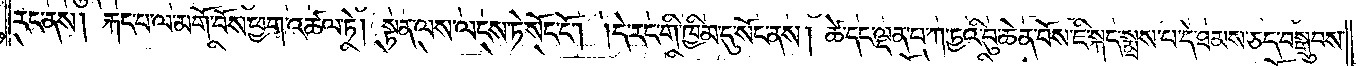རང་ནས། རྐང་པ་ལ་མགོ་བོས་ཕྱག་འཚལ་ཏེ། སྟན་ལས་ལངས་ཏེ་སོང་ངོ༌། །དེ་རང་གི་ཁྱིམ་དུ་སོང་ནས། ཚེ་དང་ལྡན་པ་ཀ་ཏྱའི་བུ་ཆེན་པོས་ཇི་སྐད་སྨྲས་པ་དེ་ཐམས་ཅད་བསྒྲུབས་
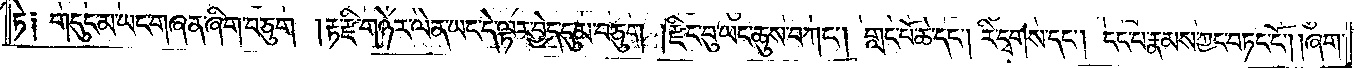ཏེ༑ གདུང་མ་ཡང་གཞན་ཞིག་བཅུག །རྟ་རྫི་གཉེར་ལེན་ཡང་དེ་ལྟར་བྱེད་དུ་མ་བཅུག །རྫིང་བུ་ཡང་ཆུས་བཀང༌། གླང་པོ་ཆེ་དང༌། རི་དྭགས་དང༌། ངང་པ་རྣམས་ཀྱང་བཏང་ངོ༌། །ཞག་
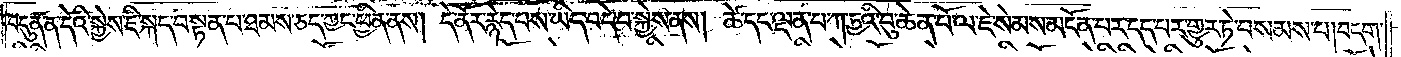བདུན་ན་དེའི་སྐྱེས་ཇི་སྐད་བསྟན་པ་ཐམས་ཅད་ཀྱང་ཕྱིན་ནས། དེ་ནོར་རྙེད་པས་ཡིད་བདེ་བ་སྐྱེས་ནས། ཚེ་དང་ལྡན་པ་ཀ་ཏྱའི་བུ་ཆེན་པོ་ལ་ཇེ་སེམས་མངོན་པར་དད་པར་གྱུར་ཏེ་བསམས་པ། བདག་
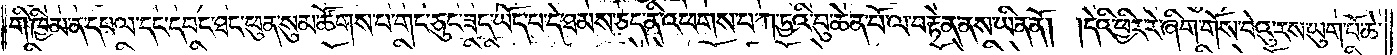གི་ཁྱིམ་ན་དཔལ་དང་དབང་ཐང་ཕུན་སུམ་ཚོགས་པ་གང་ཅུང་ཟད་ཡོད་པ་དེ་ཐམས་ཅད་ནི་འཕགས་པ་ཀ་ཏྱའི་བུ་ཆེན་པོ་ལ་བརྟེན་ནས་ཡིན་ནོ། །དེའི་ཕྱིར་རེ་ཞིག་གོས་བེའུ་རས་ཡུག་པོ་ཆེ་
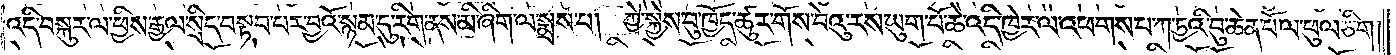འདི་བསྐུར་ལ་ཕྱིས་རྒྱལ་སྲིད་བསྟབ་པར་བྱའོ་སྙམ་དུ་རིག་ནས་མི་ཞིག་ལ་སྨྲས་པ། ཀྱེ་སྐྱེས་བུ་ཁྱོད་ཚུར་གོས་བེའུ་རས་ཡུག་པོ་ཆེ་འདི་ཁྱེར་ལ་འཕགས་པ་ཀ་ཏྱའི་བུ་ཆེན་པོ་ལ་ཕུལ་ཅིག།
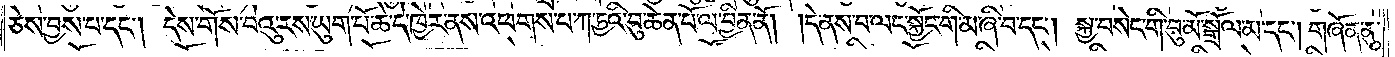ཅེས་བྱས་པ་དང༌། དེས་གོས་བེའུ་རས་ཡུག་པོ་ཆེ་དེ་ཁྱེར་ནས་འཕགས་པ་ཀ་ཏྱའི་བུ་ཆེན་པོ་ལ་བྱིན་ནོ། །དེ་ནས་བ་ལང་སྐྱོང་གི་མ་ཞི་བ་དང༌། སྐྱ་བསེང་གི་བུ་མོ་སྒྲོལ་མ་དང༌། གཞོན་ནུ་
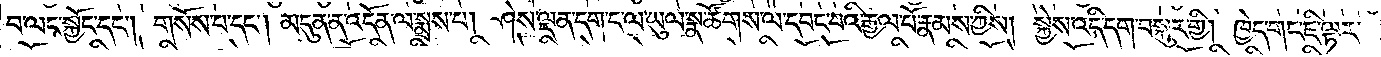བ་ལང་སྐྱོང་དང༌། གསོས་པ་དང༌། མདུན་ན་འདོན་ལ་སྨྲས་པ། ཤེས་ལྡན་དག་ང་ལ་ཡུལ་སྣ་ཚོགས་ལ་དབང་བའི་རྒྱལ་པོ་རྣམས་ཀྱིས། སྐྱེས་འདི་དག་བསྐུར་གྱི། ཁྱེད་གང་ཇི་ལྟར་
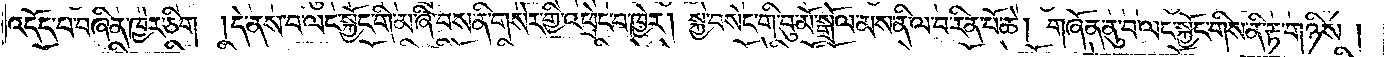འདོད་པ་བཞིན་ཁྱེར་ཅིག །དེ་ནས་བ་ལང་སྐྱོང་གི་མ་ཞི་བས་ནི་གསེར་གྱི་འཕྲེང་བ་ཁྱེར། སྐྱ་བསེང་གི་བུ་མོ་སྒྲོལ་མས་ནི་ལ་བ་རིན་པོ་ཆེ། གཞོན་ནུ་བ་ལང་སྐྱོང་གིས་ནི་རྟ་གཉིས།
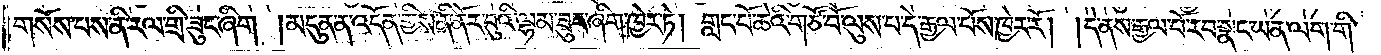གསོས་པས་ནི་རལ་གྲི་ཟུང་ཞིག །མདུན་ན་འདོན་གྱིས་ནི་ནོར་བུའི་ལྷམ་ཟུང་ཞིག་ཁྱེར་ཏེ། གླང་པོ་ཆེའི་གཙོ་བོ་ལུས་པ་དེ་རྒྱལ་པོས་ཁྱེར་རོ། །དེ་ནས་རྒྱལ་པོ་རབ་སྣང་ཡན་ལག་གི་
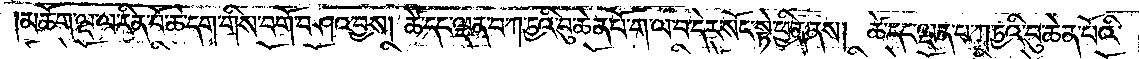།མཆོག་ལྔ་ལ་རིན་པོ་ཆེ་དག་གིས་བགོ་བཤའ་བྱས། ཚེ་དང་ལྡན་པ་ཀ་ཏྱའི་བུ་ཆེན་པོ་ག་ལ་བ་དེར་སོང་སྟེ་ཕྱིན་ནས། ཚེ་དང་ལྡན་པ་ཀ་ཏྱའི་བུ་ཆེན་པོའི་
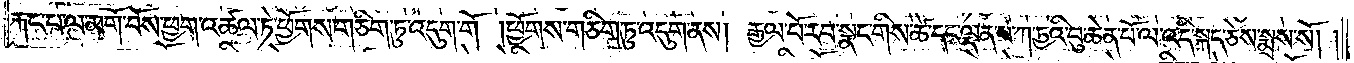རྐང་པ་ལ་མགོ་བོས་ཕྱག་འཚལ་ཏེ་ཕྱོགས་གཅིག་ཏུ་འདུག་གོ །ཕྱོགས་གཅིག་ཏུ་འདུག་ནས། རྒྱལ་པོ་རབ་སྣང་གིས་ཚེ་དང་ལྡན་པ་ཀ་ཏྱའི་བུ་ཆེན་པོ་ལ་འདི་སྐད་ཅེས་སྨྲས་སོ། །
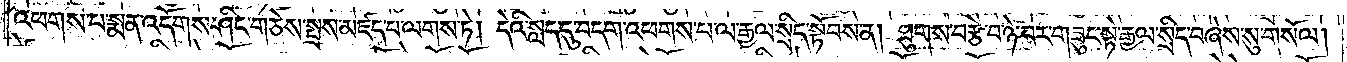འཕགས་པ་སྨན་འདོགས་ཤིང་གཅེས་སྤྲས་མཛད་པ་ལགས་ཏེ། དེའི་སླད་དུ་བདག་འཕགས་པ་ལ་རྒྱལ་སྲིད་སྟོབས་ན། ཐུགས་བརྩེ་བ་ཉེ་བར་གཟུང་སྟེ་རྒྱལ་སྲིད་བཞེས་སུ་གསོལ།
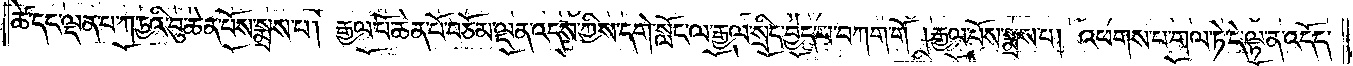ཚེ་དང་ལྡན་པ་ཀ་ཏྱའི་བུ་ཆེན་པོས་སྨྲས་པ། རྒྱལ་པོ་ཆེན་པོ་བཅོམ་ལྡན་འདས་ཀྱིས་དགེ་སློང་ལ་རྒྱལ་སྲིད་བྱེད་པ་བཀག་གོ །རྒྱལ་པོས་སྨྲས་པ། འཕགས་པ་གལ་ཏེ་དེ་ལྟ་ན་འདོད་
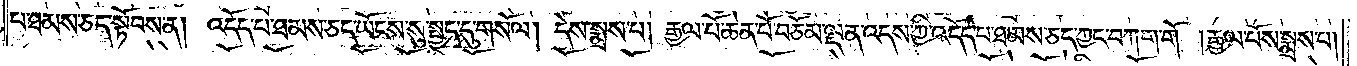པ་ཐམས་ཅད་སྟོབས་ན། འདོད་པ་ཐམས་ཅད་ཡོངས་སུ་སྤྱད་དུ་གསོལ། དེས་སྨྲས་པ། རྒྱལ་པོ་ཆེན་པོ་བཅོམ་ལྡན་འདས་ཀྱི་འདོད་པ་ཐམས་ཅད་ཀྱང་བཀག་གོ །རྒྱལ་པོས་སྨྲས་པ།
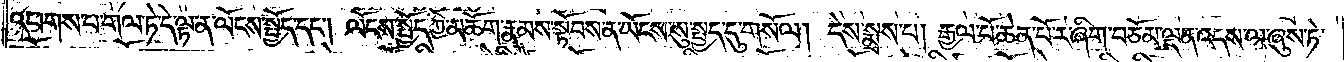འཕགས་པ་གལ་ཏེ་དེ་ལྟ་ན་ལོངས་སྤྱོད་དང༌། ལོངས་སྤྱོད་ཀྱི་མཆོག་རྣམས་སྟོབས་ན་ཡོངས་སུ་སྤྱད་དུ་གསོལ། དེས་སྨྲས་པ། རྒྱལ་པོ་ཆེན་པོ་རེ་ཞིག་བཅོམ་ལྡན་འདས་ལ་ཞུས་ཏེ་
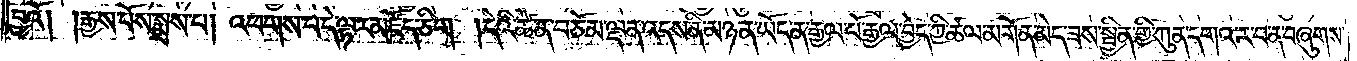བྱའོ། །རྒྱས་པོས་སྨྲས་པ། འཕགས་པ་དེ་ལྟར་མཛོད་ཅིག །དེའི་ཚེ་ན་བཅོམ་ལྡན་འདས་ནི་མཉན་ཡོད་ན་རྒྱལ་པོ་རྒྱལ་བྱེད་ཀྱི་ཚལ་མགོན་མེད་ཟས་སྦྱིན་གྱི་ཀུན་དགའ་ར་བ་ན་བཞུགས་
